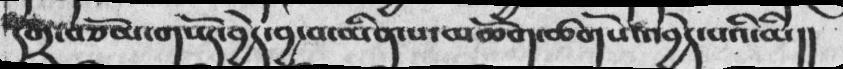དགྲ་བཅོམ་གསོད་བྱེད་བྱ་བ་མིན་པ་མཆོག་ཚོགས་འབྱེད་པའི་མི།།
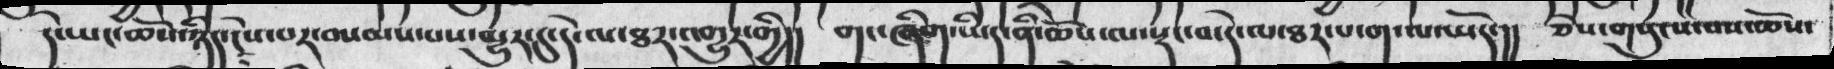དེ་ཡང་ཆོས་ཉིད་ངེས་པར་བསམས་པས་མྱུར་དུ་དེ་ལ་ཐར་འགྱུར་གྱི།། གང་ཞིག་ཡིད་ནི་ཆོས་ལ་སྡང་བ་དེ་ལ་ཐར་པ་ག་ལ་ཡོད་།། ཅེས་གསུངས་པས་ཆོས་
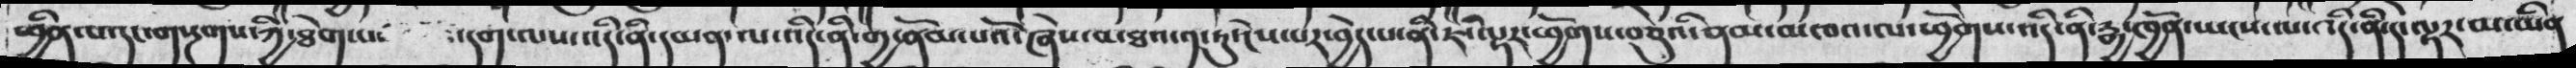ཕྱིན་པ་དང་གསྔགས་ཀྱི་ཐརག་པ་ དག་ལས་འདི་ནི་དམན་ལ་འདི་ནི་གྱ་ནོམ་པའོ་ཞེས་མཐའ་༡་ཏུ་ངེས་པར་བྱེད་པ་ནི་ཇི་ལྟར་ཕྱོགས་བཅུའི་ནམ་མཁའ་ལ་ཕྱོགས་འདི་ནི་རྒྱ་ཁྱོན་ཡངས་ལ་འདི་ནི་་དལྟར་མ་ཡིན
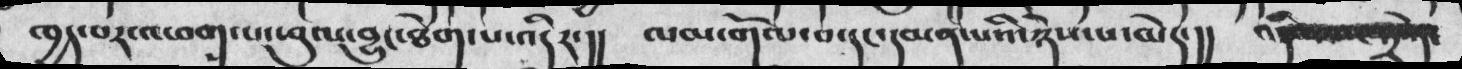ཁྱད་པར་འཕག་པ་ཕུལ་བྱུང་ཐེག་པ་འདིར་།།  ལམ་གོལ་བ་དང་དམན་པའི་ཉེས་པ་མེད་།།   འདི་ལ་ཡང་༣་སྟེ་
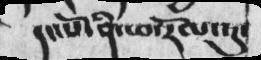དང་པོ་ནི་ཕ་རོལ་ཏུ་
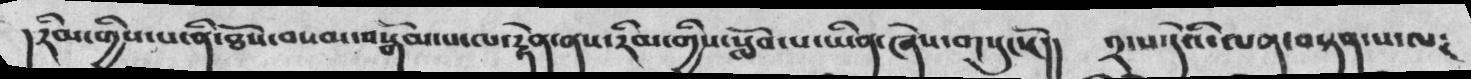།རིམ་གྱིས་པ་ནི་ཐོས་བསམ་བསྒོམ་པ་ལ་རྟེན་ནས་རིམ་གྱིས་སློབ་པ་ཡིན་ཞེས་གསུངསོ།། ༢་པ་དེའི་ལན་བསྟན་པ་ལ༴
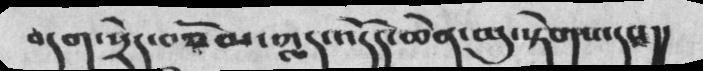བདག་སྲེད་བཅོམ་ཀླད་འདོད་ཆེན་མུ་སྟེགས་དང་།།
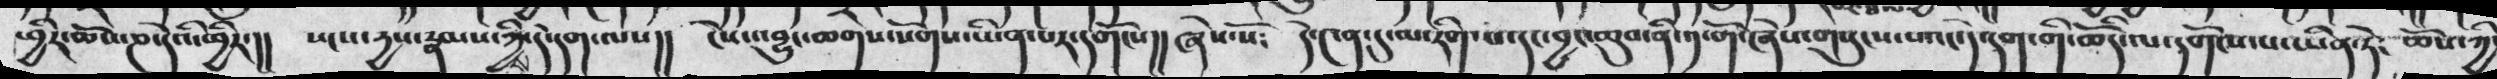ཕྱིར་ཆོས་ཎ་དེའི་ཕྱིར་།།   སངས་དྱས་རྣམས་ཀྱིས་དེ་དག་ལས།།  ངེས་འབྱུང་ཆགས་སོགས་ཡིན་པར་དགོངས།།ཞེས་སོ༴   དེ་༤ན་དུ་མ་རིག་པ་དང་བྱང་ཆུབ་ནི་༡་གོ་ཞེས་གསུངས་པའང་དེ་དག་གི་ཆོདི་ལདགོངས་པ་ཡིན་ཏེ༴   ཆོས་ཀྱི་
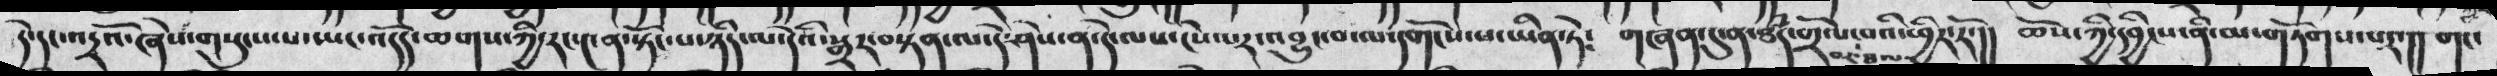དེ་དང་འདྲའོ་ཞེས་གསུངས་པ་ཡང་འདོད་ཆགས་ཀྱི་རང་༤་ན་སྟོང་པ་ཉིད་ལ་དེའི་སྒྲར་བསྟན་ལ་དེ་ཤེས་ན་དེ་ལས་ངེས་པར་འབྱུང་བ་ལ་དགོངས་པ་ཡིན་ཏེ༴   གཞན་དུ་ན་ཐཾད་གྲོལ་བར་ཐལ་བའི་ཕྱིར་རོ་།།  ཆོས་ཀྱི་དབྱིངས་ནི་མ་གཏོགས་པར་།། གང་
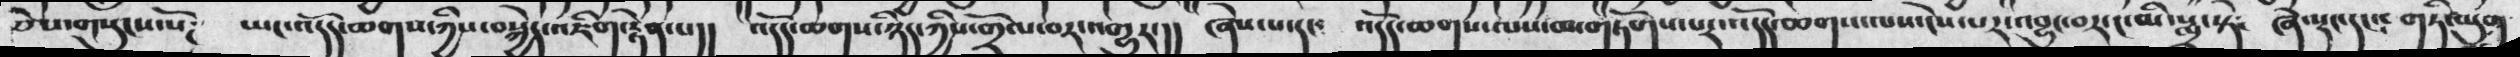ཅེས་གསུངས་སོ༴ ཡང་འདོད་ཆགས་ཀྱིས་བསྐྱེད་འཇིག་རྟེན་པ།། འདོད་ཆགས་ཉིད་ཀྱིས་གྲོལ་བར་འགྱུར་།། ཞེས་པ་དང་ འདོད་ཆགས་ལས་མ་གཏོགས་པར་འདོད་ཆགས་ལས་ངེས་པར་འབྱུང་བར་ང་མི་སྨྲ་སྟེ༴ ཞེ་སྡང་དང༴ གཏི་མུག
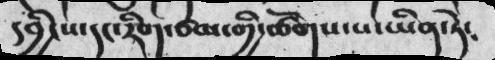དབྱིངས་དང་རིག་ཙམ་གྱི་ཚོགས་པ་ཡིན་ཏེ༴
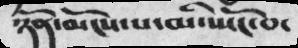ཉོན་མོངས་པ་མི་སྤོང་པ་
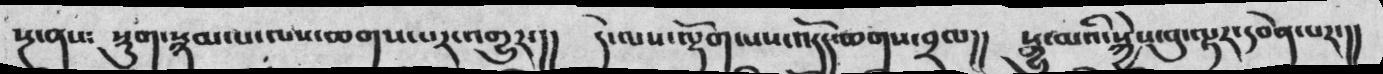སྔ་ནས༴  སྡུག་སྙམ་པ་ལས་ཆགས་པར་འགྱུར་།།  དེ་ལས་ལྡོག་པས་འདོད་ཆགས་བྲལ།།  སྒྱུ་མའི་སྐྱེས་བུ་ལྟར་དབེན་པར་།།
